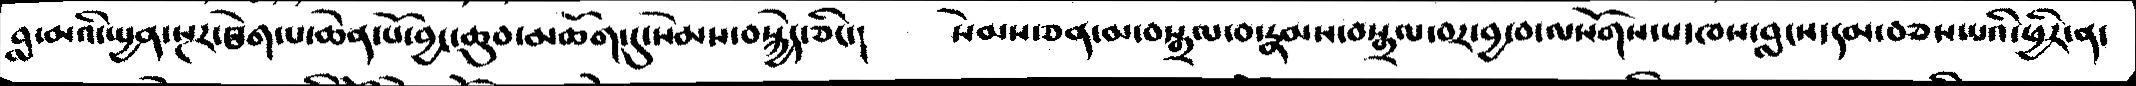བླ་མའི་སྤྱན་སྔར་ཐེག་པ་ཆེན་པོ་བྱང་ཆུབ་མཆོག་དུ་སེམས་བསྐྱེད་ཅིང་།   སེམས་ཅན་མ་བསྒྲལ་བ་རྣམས་བསྒྲལ་བར་བྱ་བ་ལསོགས་པ་ཁས་བླངས་དམ་བཅས་པའི་ཕྱིར་ན་
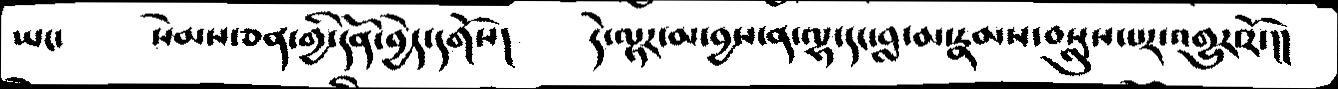ཡང་   སེམས་ཅན་གྱི་དོན་བྱེད་དགོས།   དེ་ལྟར་མ་བྱས་ན་ལྷ་དང་བླ་མ་རྣམས་བསླུས་པར་འགྱུར་རོ་།།
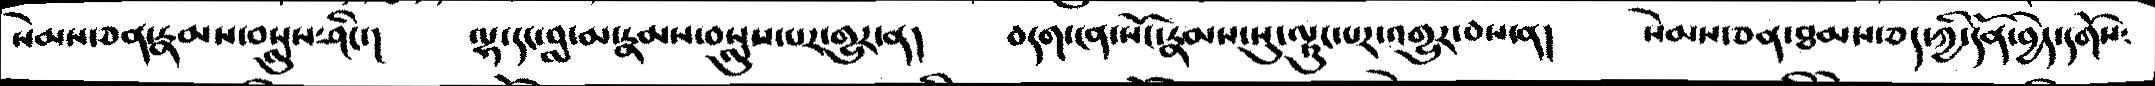སེམས་ཅན་རྣམས་བསླུས་ཤིང་།   ལྷ་དང་བླ་མ་རྣམས་བསླུས་པར་གྱུར་ན།   བདག་ངན་སོང་རྣམས་སུ་ལྟུང་པར་འགྱུར་བས་ན།   སེམས་ཅན་ཐམས་ཅད་ཀྱི་དོན་བྱེད་དགོས༴
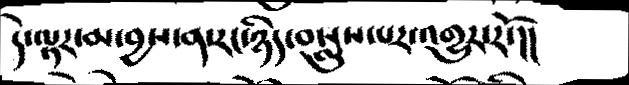དེ་ལྟར་མ་བྱས་ན་རང་ཉིད་བསླུས་པར་འགྱུར་རོ་།།
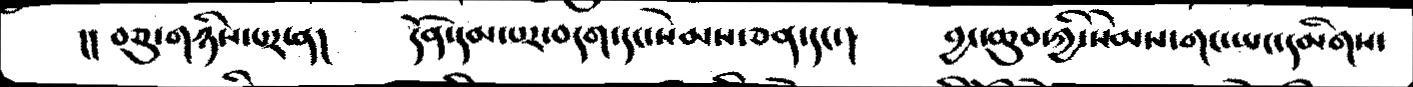།།བཅུ་གཉིས་པར་ན།   དོན་དམ་པར་བདག་དང་སེམས་ཅན་དང་།   བྱང་ཆུབ་ཀྱི་སེམས་གང་ཡང་དམིགས་
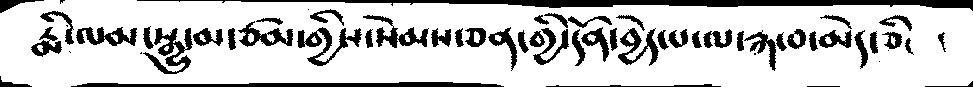རྨི་ལམ་སྒྱུ་མ་ཙམ་གྱིས་སེམས་ཅན་གྱི་དོན་བྱེད་པ་ལ་རྐ་བ་མེད་ཅིང །
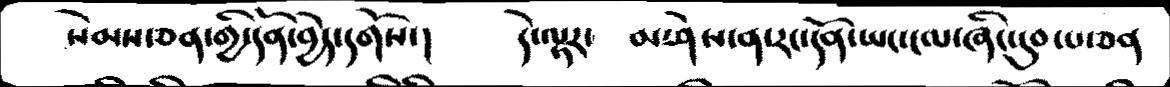སེམས་ཅན་གྱི་དོན་བྱེད་དགོས་།   དེ་ལྟར་  མ་ཤེས་ན་རང་དོན་ཡང་ངལ་ཞིང་དུབ་པ་ཅན
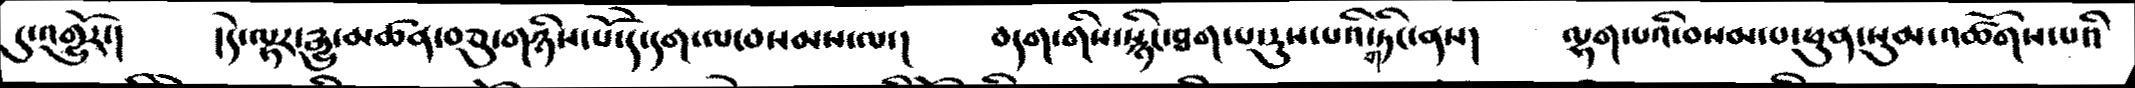དུ་འགྱུརོ་།   །དེ་ལྟར་རྒྱུ་མཚན་བཅུ་གཉིས་པོ་དེ་དག་ལ་བསམས་ལ་།   བདག་གིས་སྙིང་ཐག་པ་རུས་པའི་གཏིང་ནས།   ལྷག་པའི་བསམ་པ་ཕུན་སུམ་འཚོགས་པའི
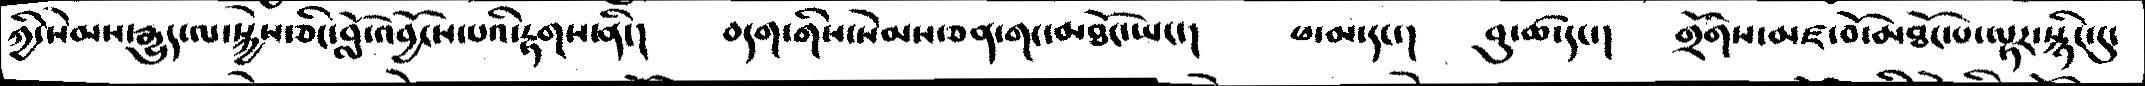ཀྱི་སེམས་རྒྱུད་ལ་སྐྱེས་ཅིང་བློ་འབྱོངས་པའི་རྟགས་ནི་།   བདག་གིས་སེམས་ཅན་གང་མཐོང་ཡང་།  ཕ་མ་དང་།  བུ་ཚ་དང་།  གྲོགས་མཛ་བོ་མཐོང་པ་ལྟར་སྙིང་དུ་
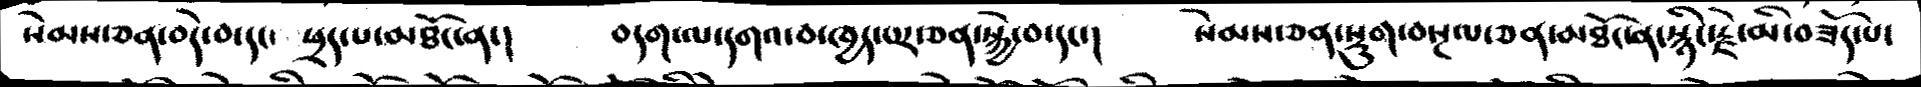སེམསཅན་བདེ་བ་དང་ ཕྲད་པ་མཐོང་ན་།  བདག་ལ་དགའ་བ་ཁྱད་པར་ཅན་སྐྱེ་བ་དང་།   སེམས་ཅན་སྡུག་བསྔལ་ཅན་མཐོང་ན་སྙིང་རྗེ་མི་བཟོད་པ་
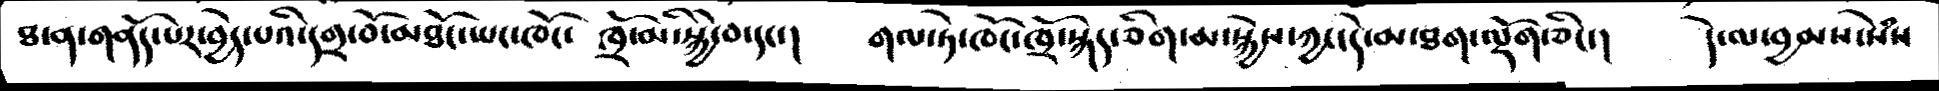ཐ་ན་གནོད་པར་བྱེད་པའི་དགྲ་བོ་མཐོང་ཡང་ཁོང་ ཁྲོ་མི་སྐྱེ་བ་དང་།  གལ་ཏེ་ཁོང་ཁྲོ་སྐད་ཅིག་མ་སྐྱེས་ཀྱང་དེ་མ་ཐག་ལྡོག་ཅིང་།   དེ་ལ་བྱམས་སེཾས
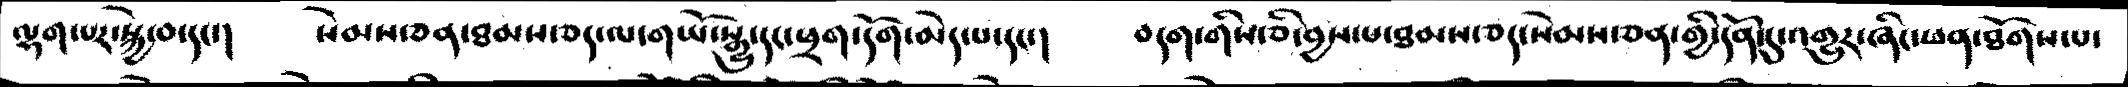ལྷག་པར་སྐྱེ་བ་དང་།   སེམས་ཅན་ཐམས་ཅད་ལ་གཡོ་སྒྱུ་དང་ཕྲག་དོག་མེད་པ་དང་།   བདག་གིས་ཅི་བྱས་པ་ཐམས་ཅད་སེམས་ཅན་གྱི་དོན་དུ་འགྱུར་ཞིང་ཕན་ཐོགས་པ་
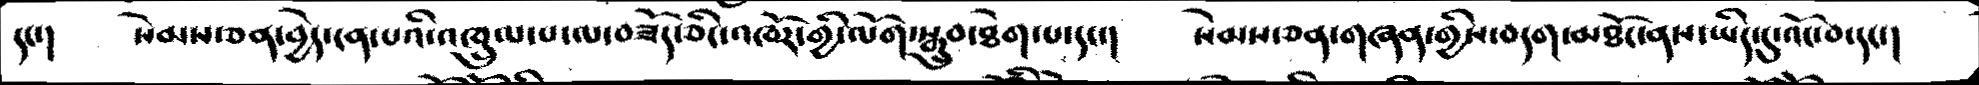དང་།   སེམས་ཅན་བྱེད་ངན་པའི་འཁྲུལ་པ་ལ་བཟོད་ཅིང་འཁོར་གྱི་ལོག་སྒྲུབ་ཐེག་པ་དང་།   སེམས་ཅན་གཞན་གྱིས་བདག་མཐོང་ནས་ཡིད་དུ་འོང་བ་དང་།
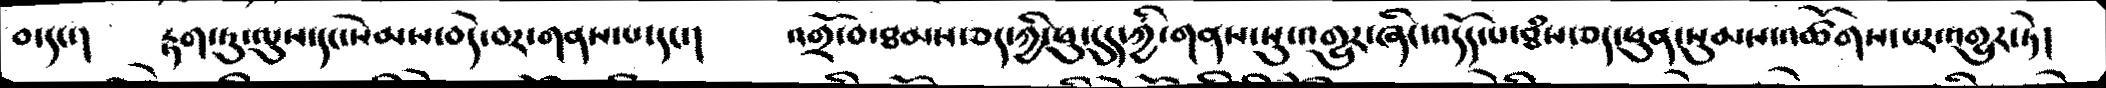བ་དང་།    རྟག་ཏུ་ལུས་དང་སེམས་བདེ་བར་གནས་པ་དང་།    འགྲོ་བ་ཐམས་ཅད་ཀྱི་ཕུ་དུད་ཀྱི་གནས་སུ་འགྱུར་ཞིང་འདོད་པ་ཐཾས་ཅད་ཕུན་སུམས་འཚོགས་པར་འགྱུར་ཏེ།
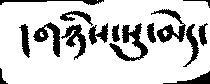།གཉིས་སུ་མེད་
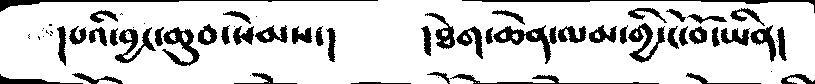།པའི་བྱང་ཆུབ་སེམས་།   །ཐེག་ཆེན་ལམ་གྱི་ངོ་བོ་ཡིན།
